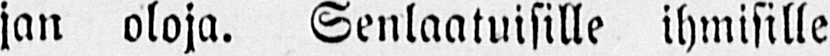jan oloja. Senlaatuisille ihmisille
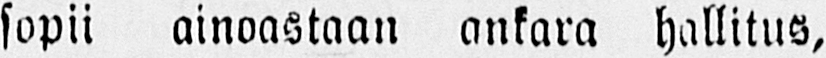sopii ainoastaan ankara hallitus,
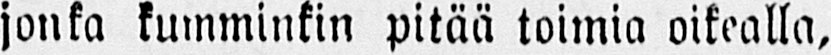jonka kumminkin pitää toimia oikealla,
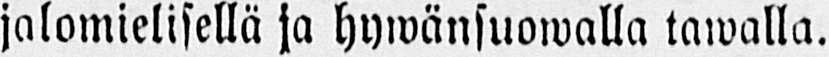jalomielisellä ja hywänsuowalla tawalla.
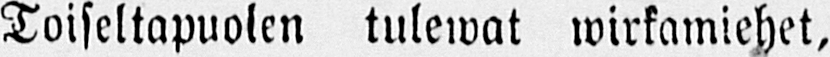Toiseltapuolen tulewat wirkamiehet,
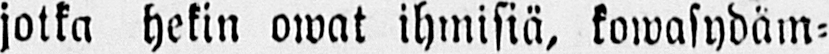jotka hekin owat ihmisiä, kowasydäm-
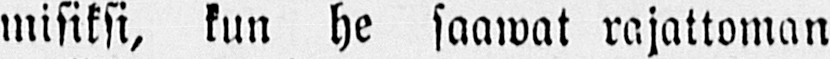misiksi, kun he saawat rajattoman
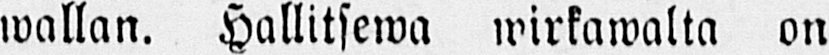wallan. Hallitsewa wirkawalta on
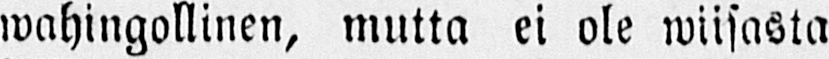wahingollinen, mutta ei ole wiisasta
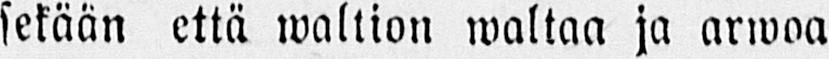sekään että waltion waltaa ja arwoa
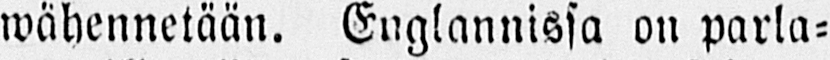wähennetään. Englannissa on parla-
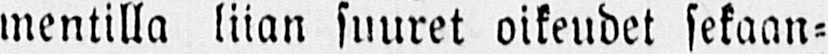mentilla liian suuret oikeudet sekaan-
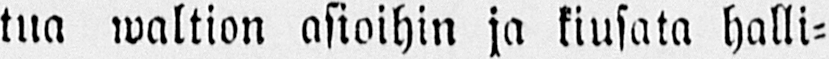tua waltion asioihin ja kiusata halli-
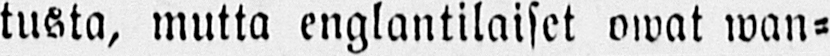tusta, mutta englantilaiset owat wan-
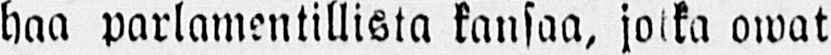haa parlamentillista kansaa, jotka owat
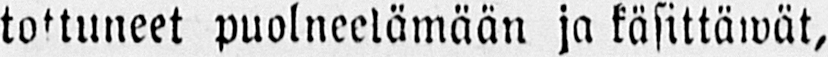tottuneet puolneelämään ja käsittäwät,
